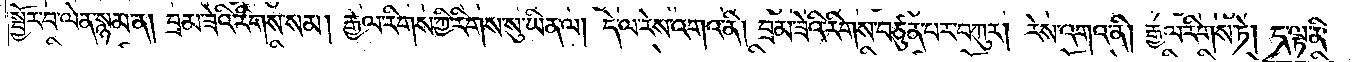སྦྱོར་བ་ལེན་སྙམ་ན། བྲམ་ཟེའི་རིགས་སམ། རྒྱལ་རིགས་ཀྱི་རིགས་སུ་ཡིན་ལ། དེ་ལ་རེས་འགའ་ནི། བྲམ་ཟེའི་རིགས་བཙུན་པར་བཀུར། རེས་འགའ་ནི། རྒྱལ་རིགས་ཏེ། ད་ལྟ་ནི་
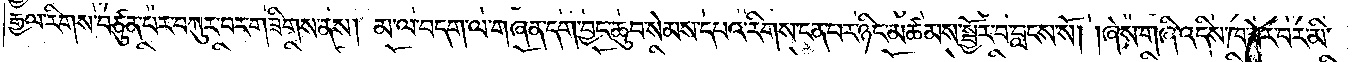རྒྱལ་རིགས་བཙུན་པར་བཀུར་བར་གཟིགས་ནས། མ་ལ་བདག་ལ་གཞན་དག་བྱང་ཆུབ་སེམས་དཔའ་རིགས་ངན་པར་ཉིང་མཚམས་སྦྱོར་བ་བླངས་སོ། །ཞེས་གཞི་འདིས་ཁ་ཟེར་བར་མི་
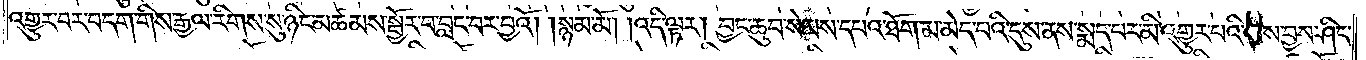འགྱུར་བར་བདག་གིས་རྒྱལ་རིགས་སུ་ཉིང་མཚམས་སྦྱོར་བ་བླང་བར་བྱའོ། །སྙམ་མོ། །འདི་ལྟར། བྱང་ཆུབ་སེམས་དཔའ་ཐོག་མ་མེད་པའི་དུས་ནས་སྨད་པར་མི་འགྱུར་པའི་ལས་བྱས་ཤིང་
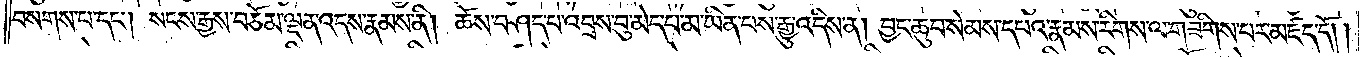བསགས་པ་དང༌། སངས་རྒྱས་བཅོམ་ལྡན་འདས་རྣམས་ནི། ཆོས་བཤད་པ་འབྲས་བུ་མེད་པ་མ་ཡིན་པས་རྒྱུ་འདིས་ན། བྱང་ཆུབ་སེམས་དཔའ་རྣམས་རིགས་ལ་གཟིགས་པར་མཛད་དོ། །
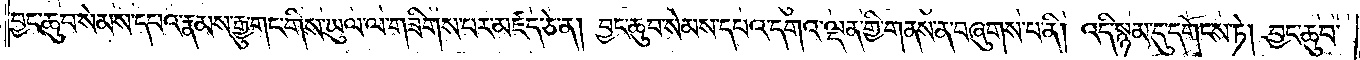བྱང་ཆུབ་སེམས་དཔའ་རྣམས་རྒྱུ་གང་གིས་ཡུལ་ལ་གཟིགས་པར་མཛད་ཅེ་ན། བྱང་ཆུབ་སེམས་དཔའ་དགའ་ལྡན་གྱི་གནས་ན་བཞུགས་པ་ནི། འདི་སྙམ་དུ་དགོངས་ཏེ། བྱང་ཆུབ་
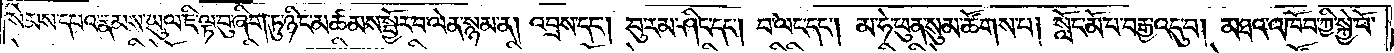སེམས་དཔའ་རྣམས་ཡུལ་ཇི་ལྟ་བུ་ཞིག་ཏུ་ཉིང་མཚམས་སྦྱོར་བ་ལེན་སྙམ་ན། འབྲས་དང༌། བུ་རམ་ཤིང་དང༌། བ་ལང་དང༌། མ་ཧེ་ཕུན་སུམ་ཚོགས་པ། སློང་མོ་པ་བརྒྱ་འདུ་བ། མཐའ་འཁོབ་ཀྱི་སྐྱེ་བོ་
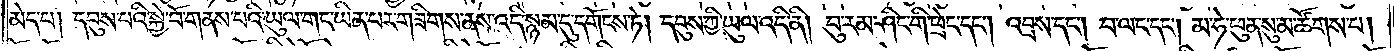མེད་པ། དབུས་པའི་སྐྱེ་བོ་གནས་པའི་ཡུལ་གང་ཡིན་པར་གཟིགས་ནས་འདི་སྙམ་དུ་དགོངས་ཏེ། དབུས་ཀྱི་ཡུལ་འདི་ནི། བུ་རམ་ཤིང་གི་ཕྲེང་དང༌། འབྲས་དང༌། བ་ལང་དང༌། མ་ཧེ་ཕུན་སུམ་ཚོགས་པ།
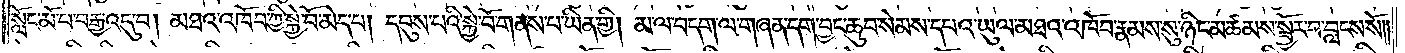སློང་མོ་པ་བརྒྱ་འདུ་བ། མཐའ་འཁོབ་ཀྱི་སྐྱེ་བོ་མེད་པ། དབུས་པའི་སྐྱེ་བོ་གནས་པ་ཡིན་གྱི། མ་ལ་བདག་ལ་གཞན་དག་བྱང་ཆུབ་སེམས་དཔའ་ཡུལ་མཐའ་འཁོབ་རྣམས་སུ་ཉིང་མཚམས་སྦྱོར་བ་བླངས་སོ༎
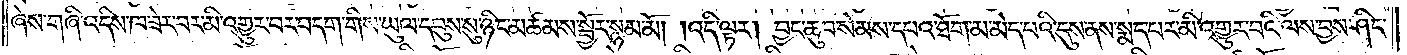ཞེས་གཞི་འདིས་ཁ་ཟེར་བར་མི་འགྱུར་བར་བདག་གིས་ཡུལ་དབུས་སུ་ཉིང་མཚམས་སྦྱོར་སྙམ་མོ། །འདི་ལྟར། བྱང་ཆུབ་སེམས་དཔའ་ཐོག་མ་མེད་པའི་དུས་ནས་སྨད་པར་མི་འགྱུར་བའི་ལས་བྱས་ཤིང་
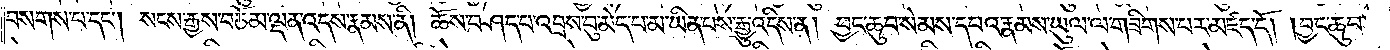བསགས་པ་དང༌། སངས་རྒྱས་བཅོམ་ལྡན་འདས་རྣམས་ནི། ཆོས་བཤད་པ་འབྲས་བུ་མེད་པ་མ་ཡིན་པས་རྒྱུ་འདིས་ན། བྱང་ཆུབ་སེམས་དཔའ་རྣམས་ཡུལ་ལ་གཟིགས་པར་མཛད་དོ། །བྱང་ཆུབ་
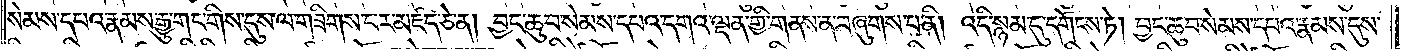སེམས་དཔའ་རྣམས་རྒྱུ་གང་གིས་དུས་ལ་གཟིགས་པར་མཛད་ཅེ་ན། བྱང་ཆུབ་སེམས་དཔའ་དགའ་ལྡན་གྱི་གནས་ན་བཞུགས་པ་ནི། འདི་སྙམ་དུ་དགོངས་ཏེ། བྱང་ཆུབ་སེམས་དཔའ་རྣམས་དུས་
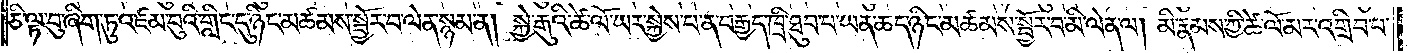ཅི་ལྟ་བུ་ཞིག་ཏུ་འཛམ་བུའི་གླིང་དུ་ཉིང་མཚམས་སྦྱོར་བ་ལེན་སྙམ་ན། སྐྱེ་རྒྱུའི་ཚེ་ལོ་ཡར་སྐྱེས་པ་ན་བརྒྱད་ཁྲི་ཐུབ་པ་ཡན་ཆད་ཉིང་མཚམས་སྦྱོར་བ་མི་ལེན་ལ། མི་རྣམས་ཀྱི་ཚེ་ལོ་མར་འགྲིབ་པ་
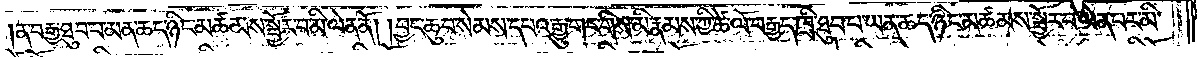ན་བརྒྱ་ཐུབ་པ་མན་ཆད་ཉིང་མཚམས་སྦྱོར་བ་མི་ལེན་ནོ། །བྱང་ཆུབ་སེམས་དཔའ་རྒྱུ་གང་གིས་མི་རྣམས་ཀྱི་ཚེ་ལོ་བརྒྱད་ཁྲི་ཐུབ་པ་ཡན་ཆད་ཉིང་མཚམས་སྦྱོར་བ་ལེན་པར་མི་
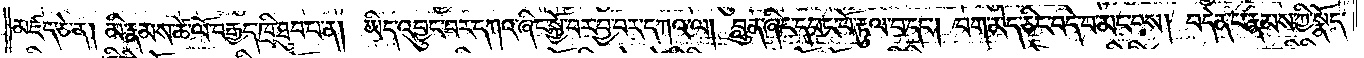མཛད་ཅེ་ན། མི་རྣམས་ཚེ་ལོ་བརྒྱད་ཁྲི་ཐུབ་པ་ན། ཡིད་འབྱུང་བར་དཀའ་ཞིང་སྐྱོ་བར་བྱ་བར་དཀའ་ལ། བླུན་ཞིང་དབང་པོ་རྟུལ་བ་དང༌། བག་མེད་ཅིང་བདེ་བ་མང་བས། བདེན་པ་རྣམས་ཀྱི་སྣོད་
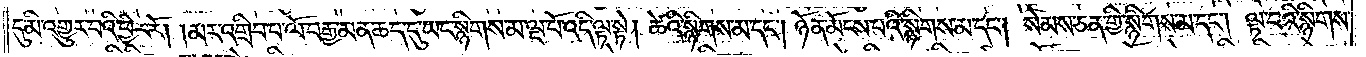དུ་མི་འགྱུར་བའི་ཕྱིར་རོ། །མར་འགྲིབ་པ་ལོ་བརྒྱ་མན་ཆད་དུ་ཡང་སྙིགས་མ་ལྔ་པོ་འདི་ལྟ་སྟེ། ཚེའི་སྙིགས་མ་དང༌། ཉོན་མོངས་པའི་སྙིགས་མ་དང༌། སེམས་ཅན་གྱི་སྙིགས་མ་དང༌། ལྟ་བའི་སྙིགས་
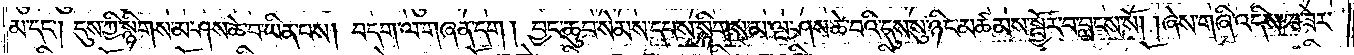མ་དང༌། དུས་ཀྱི་སྙིགས་མ་ཤས་ཆེ་བ་ཡིན་པས། བདག་ལ་གཞན་དག། བྱང་ཆུབ་སེམས་དཔས་སྙིགས་མ་ལྔ་ཤས་ཚེ་བའི་དུས་སུ་ཉིང་མཚམས་སྦྱོར་བ་བླངས་སོ། །ཞེས་གཞི་འདིས་ཁ་ཟེར་
